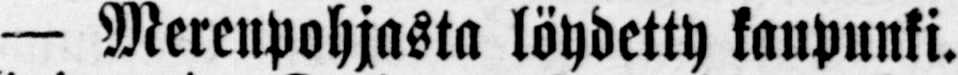— Merenpohjasta löydetty kaupunki.
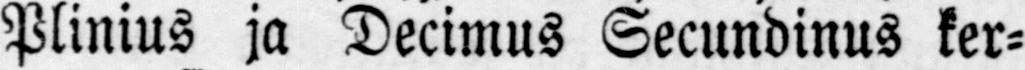Plinius ja Decimus Secundinus ker-
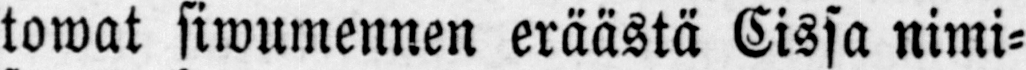towat siwumennen eräästä Cissa nimi-
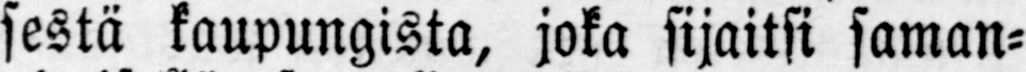sestä kaupungista, joka sijaitsi saman-
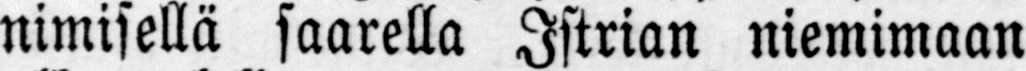nimisellä saarella Istrian niemimaan
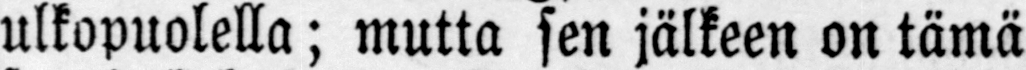ulkopuolella; mutta sen jälkeen on tämä
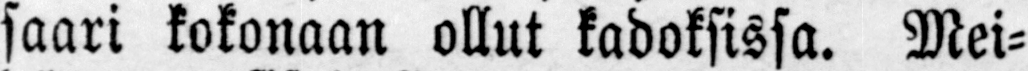saari kokonaan ollut kadoksissa. Mei-
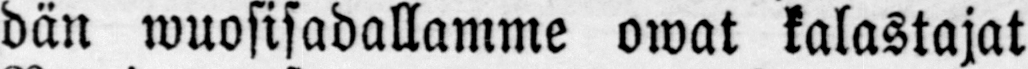dän wuosisadallamme owat kalastajat
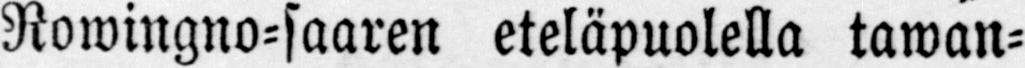Nowingno-saaren eteläpuolella tawan-
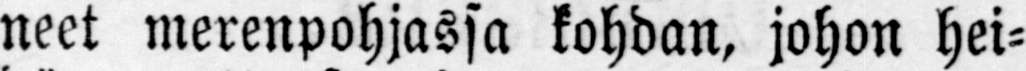neet merenpohjassa kohdan, johon hei-
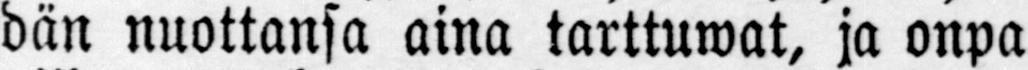dän nuottansa aina tarttuwat, ja onpa
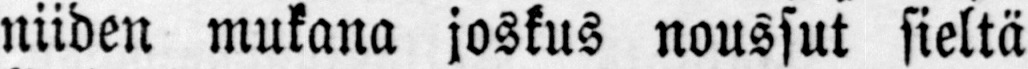niiden mukana joskus noussut sieltä
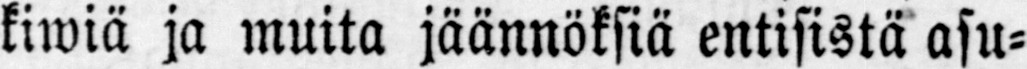kiwiä ja muita jäännöksiä entisistä asu-
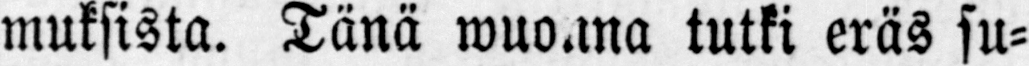muksista. Tänä wuonna tutki eräs su-
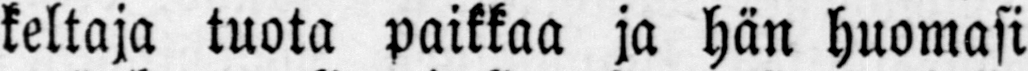keltaja tuota paikkaa ja hän huomasi
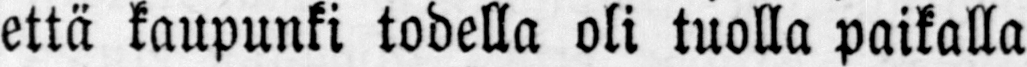että kaupunki todella oli tuolla paikalla
